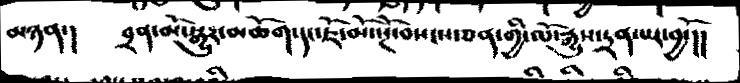མཉན་།  བྲན་མོ་སྒྱུར་མཆོག་དང་ཇོ་མོ་སྔོ་བསངས་ཅན་གྱི་ལོ་རྒྱུས་དྲན་པར་བྱོ་།།
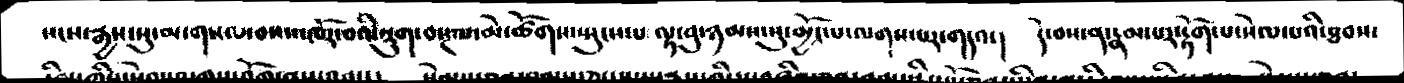སངས་རྒྱས་སུ་མ་གསལ་བས་འཁོར་བའི་སྡུག་བསྔལ་མེ་ཚོགས་སྤུངས་པ ལྟ་བུ་ཉམས་སུ་མྱོང་པ་ལགས་པར་གདའ་།  དེ་བས་ན་རྣམ་པར་རྟོག་པ་སེལ་པའི་ཐབས་
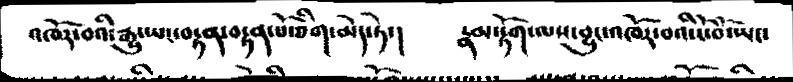འཁོར་བའི་རྒྱུ་ཡང་བརྟན་བརྟན་པོ་ཅིག་མེད་ཏེ་།     རྣམ་རྟོག་ལས་བྱུང་འཁོར་བའི་ངོ་བོ་སྤང་
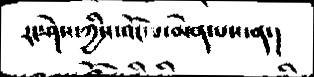རང་ཤེས་ཀྱིས་འོང་པ་མིན་པས་ན་།
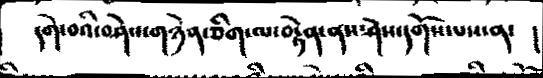དགེ་བའི་བཤེས་གཉེན་ཅིག་ལ་བརྟེན་ནས་ཤེས་དགོས་པས་ན།    །
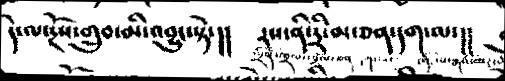དེ་ལ་རྔོས་གྲུབ་མི་འབྱུང་སྟེ་།།     རས་ནི་ཏྲི་མ་ཅན་དག་ལ་།།
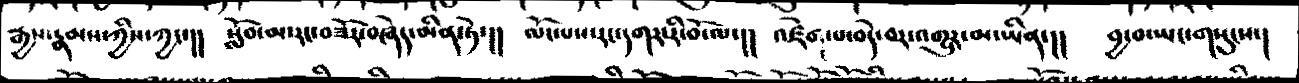རྒྱས་རྣམས་ཀྱིས་ཀྱང་།།  སློབ་མ་རང་བཟོར་བཞེད་མིན་ཏེ་།།  ལོང་པས་རང་དགར་རི་བོ་ལ་།།  འཛེག་པ་བདེ་པར་འགྱུར་མ་ཡིན་།།  བྱ་བ་ཡང་གསུངས་།
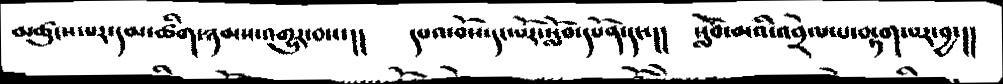མཚུངས་པར་དམ་ཚིག་ཉམས་འགྱུར་བས་།།      དཔའ་བོས་དང་པོར་སློབ་དཔོན་དང་།།    སློབ་མའི་འབྲེལ་པ་བརྟག་པར་བྱ་།།
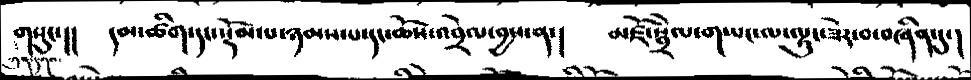ཀུན་དགའ་གསུང་།།  དམ་ཚིག་དང་སྡོམ་པ་ཉམས་པ་དང་ཆོས་འབྲེལ་བྱས་ན་།  མཛོ་སྦྲེལ་གཡང་ལ་ལྟུང་ཟེར་བ་བཞིན་དུ་།
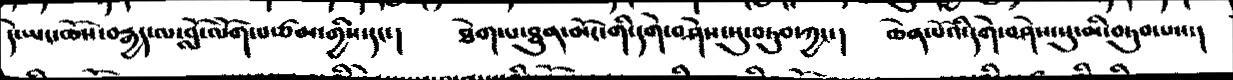དེ་ཡང་ཆོས་བརྒྱད་ལ་བློ་ལོག་པ་ཙམ་གྱིས་དང་།   ཐེག་པ་ཐུན་མོང་གི་དགེ་བཤེས་སུ་བཏུབ་ཀྱང་།  ཆེན་པོའི་དགེ་བཤེས་སུ་མི་བཏུབ་པས་།
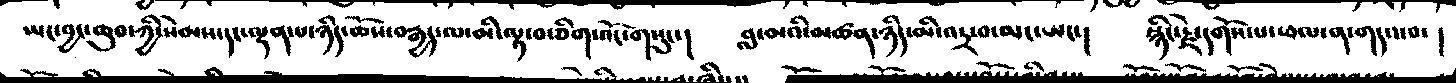ཡང་བྱང་ཆུབ་ཀྱི་སེམས་དང་ལྡན་པ་ཉིད་ཆོས་བརྒྱད་ལ་མི་ལྟ་བ་ཅིག་འོང་གསུང་།  བླ་མའི་མཚན་ཉིད་མི་འདྲ་བ་མང་ཡང་།  སྙིང་རྗེ་དགོས་པ་ཕལ་ན་གདའ་བ་ །
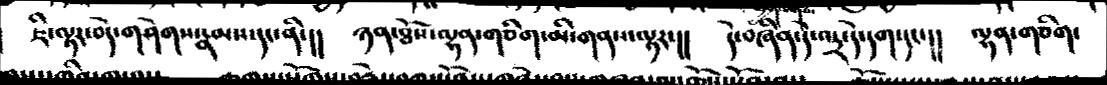ཇི་ལྟར་བདེ་གཤེགས་རྣམས་དང་ནི་།།  ཉན་ཐོས་ལྷན་གཅིག་མི་གནས་ལྟར་།།  དེ་བཞིན་དེ་འདྲ་དེ་དག་དང་།། ལྷན་གཅིག་
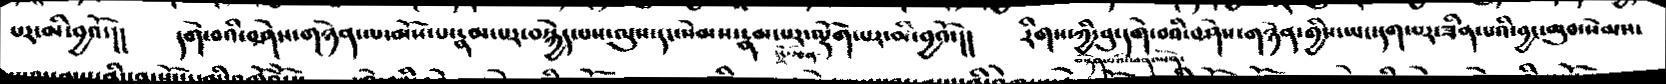པར་མི་བྱའོ་།།  དགེ་བའི་བཤེས་གཉེན་ལ་མོས་པ་རྣམ་པར་བསྐྱེད་པས་ལུས་དང་སེམས་རྣམ་པར་ལྡོག་པར་མི་བྱའོ་།།  རིགས་ཀྱི་བུ་དགེ་བའི་བཤེས་གཉེན་གྱིས་ཡང་དག་པར་ཟིན་པའི་བྱང་ཆུབ་སེམས་
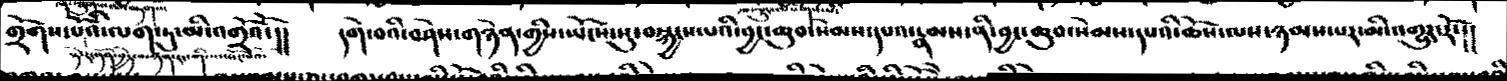གྲོགས་པོའི་ལག་ཏུ་མི་འགྲོའོ་།།    དགེ་བའི་བཤེས་གཉེན་གྱིས་ཡོངས་སུ་བསྐྱངས་པའི་བྱང་ཆུབ་སེམས་དཔའ་རྣམས་ནི་བྱང་ཆུབ་སེམས་དཔའི་ཆོས་ཉམས་པར་མི་འགྱུར་རོ་།།
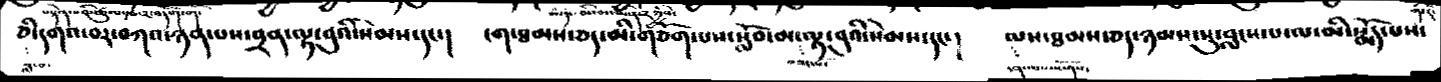ཅི་དགའ་བར་བཀའ་ཉན་པས་བྲན་ལྟ་བུའི་སེམས་དང་།  ངག་ཐམས་ཅད་མི་གཅོག་པས་སློབ་མ་བཟང་པོ་ལྟ་བུའི་སེམས་དང་།  ལས་ཐམས་ཅད་ཉམས་སུ་བླངས་པ་ལ་མི་སྨོད་པས་
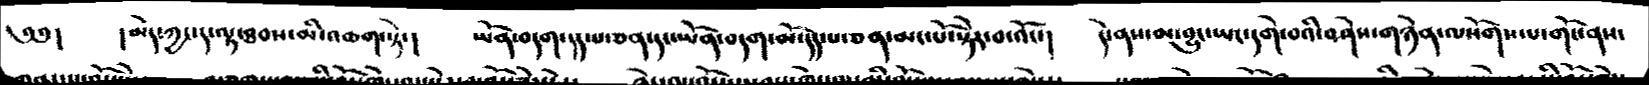༄༅།   ། མེད་ཀྱང་ད་ལྟ་ཐབས་མི་འཆག་སྟེ་།  ཡོན་བདག་དད་པ་ཅན་དང་ཡོན་བདག་མོ་དད་པ་ཅན་མང་པོ་སྟེར་བ་འོང་།    དེ་ནས་མ་བྱུང་ཡང་དགེ་བའི་བཤེས་གཉེན་ལསོགས་པ་གོང་ནས་
